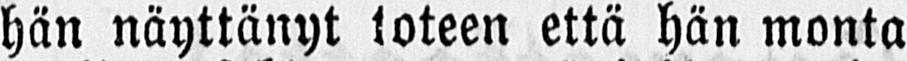hän näyttänyt toteen että hän monta
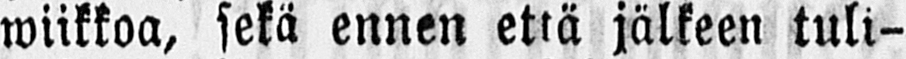wiikkoa, sekä ennen etkä jälkeen tuli-
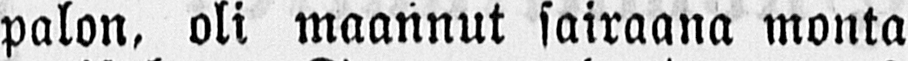palon, oli maannut sairaana monta
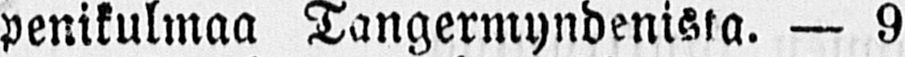penikulmaa Tangermyndenista. — 9
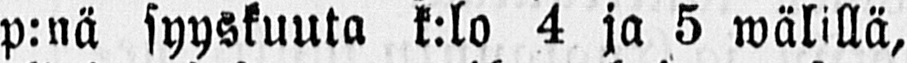p:nä syyskuuta k:lo 4 ja 5 wälillä,
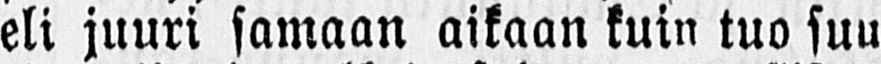eli juuri samaan aikaan kuin tuo suu
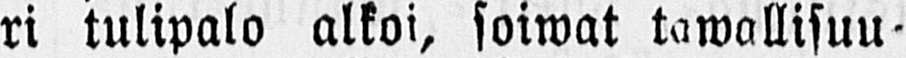ri tulipalo alkoi, soiwat tawallisuu-
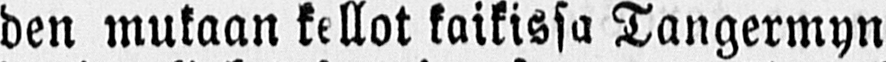den mukaan kellot kaikissa Tangermyn
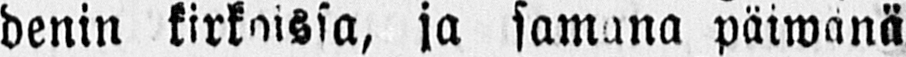denin kirkoissa, ja samana päiwänä
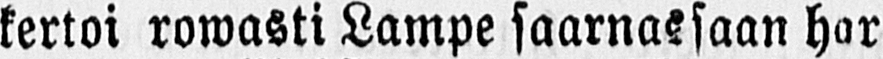kertoi rowasti Lampe saarnassaan har
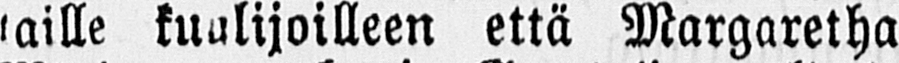taille kualijoilleen että Margaretha
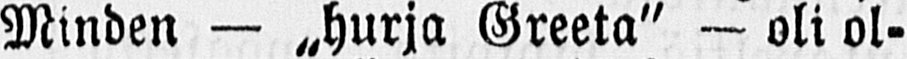Minden — „hurja Greeta" — oli ol-
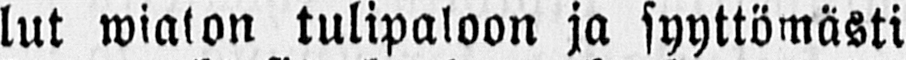lut wiaton tulipaloon ja syyttömästi
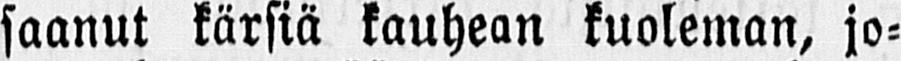saanut kärsiä kauhean kuoleman, jo-
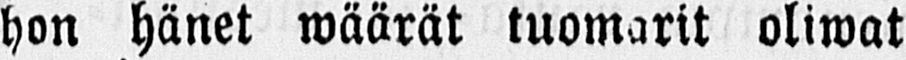hon hänet wäärät tuomarit oliwat
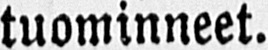tuominneet.
